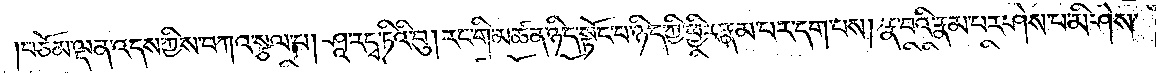བཅོམ་ལྡན་འདས་ཀྱིས་བཀའ་སྩལ་པ། ཤཱ་རདྭ་ཏིའི་བུ། རང་གི་མཚན་ཉིད་སྟོང་པ་ཉིད་ཀྱི་ཕྱིར་རྣམ་པར་དག་པས། རྣ་བའི་རྣམ་པར་ཤེས་པ་མི་ཤེས་
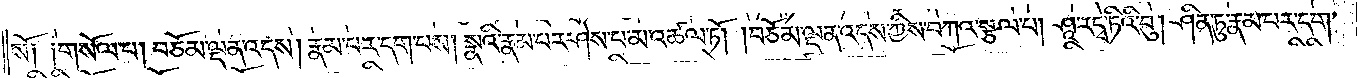སོ༑ ༑གསོལ་པ། བཅོམ་ལྡན་འདས། རྣམ་པར་དག་པས། སྣའི་རྣམ་པར་ཤེས་པ་མ་འཚལ་ཏོ། །བཅོམ་ལྡན་འདས་ཀྱིས་བཀའ་སྩལ་པ། ཤཱ་རདྭ་ཏིའི་བུ། ཤིན་ཏུ་རྣམ་པར་དག་
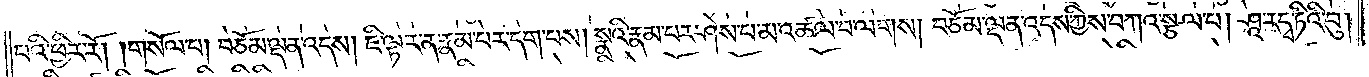པའི་ཕྱིར་རོ། །གསོལ་པ། བཅོམ་ལྡན་འདས། ཇི་ལྟར་ན་རྣམ་པར་དག་པས། སྣའི་རྣམ་པར་ཤེས་པ་མ་འཚལ་བ་ལགས། བཅོམ་ལྡན་འདས་ཀྱིས་བཀའ་སྩལ་པ། ཤཱ་ར་དྭ་ཏིའི་བུ།
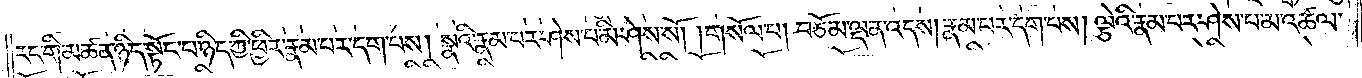རང་གི་མཚན་ཉིད་སྟོང་པ་ཉིད་ཀྱི་ཕྱིར་རྣམ་པར་དག་པས། སྣའི་རྣམ་པར་ཤེས་པ་མི་ཤེས་སོ། །གསོལ་པ། བཅོམ་ལྡན་འདས། རྣམ་པར་དག་པས། ལྕེའི་རྣམ་པར་ཤེས་པ་མ་འཚལ་
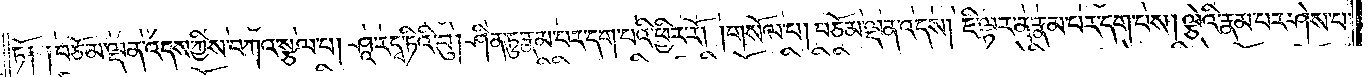ཏོ༑ ༑བཅོམ་ལྡན་འདས་ཀྱིས་བཀའ་སྩལ་པ། ཤཱ་རདྭ་ཏིའི་བུ། ཤིན་ཏུ་རྣམ་པར་དག་པའི་ཕྱིར་རོ། །གསོལ་པ། བཅོམ་ལྡན་འདས། ཇི་ལྟར་ན་རྣམ་པར་དག་པས། ལྕེའི་རྣམ་པར་ཤེས་པ་
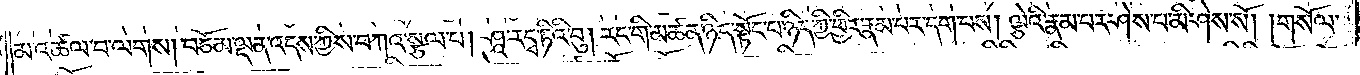མ་འཚལ་བ་ལགས། བཅོམ་ལྡན་འདས་ཀྱིས་བཀའ་སྩལ་པ། ཤཱ་ར་དྭ་ཏིའི་བུ། རང་གི་མཚན་ཉིད་སྟོང་པ་ཉིད་ཀྱི་ཕྱིར་རྣམ་པར་དག་པས། ལྕེའི་རྣམ་པར་ཤེས་པ་མི་ཤེས་སོ། །གསོལ་
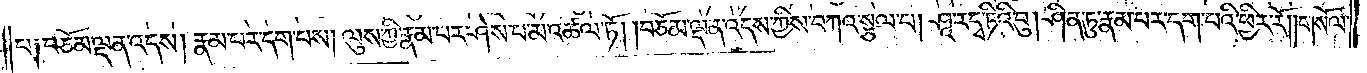པ༑ བཅོམ་ལྡན་འདས། རྣམ་པར་དག་པས། ལུས་ཀྱི་རྣམ་པར་ཤེས་པ་མ་འཚལ་ཏོ། །བཅོམ་ལྡན་འདས་ཀྱིས་བཀའ་སྩལ་པ། ཤཱ་ར་དྭ་ཏིའི་བུ། ཤིན་ཏུ་རྣམ་པར་དག་པའི་ཕྱིར་རོ། །གསོལ་
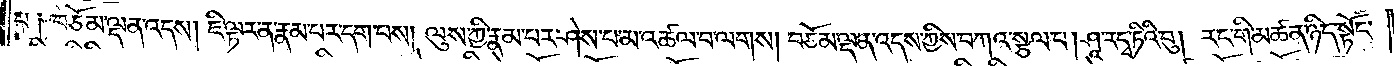པ༑ བཅོམ་ལྡན་འདས། ཇི་ལྟར་ན་རྣམ་པར་དག་པས། ལུས་ཀྱི་རྣམ་པར་ཤེས་པ་མ་འཚལ་བ་ལགས། བཅོམ་ལྡན་འདས་ཀྱིས་བཀའ་སྩལ་པ། ཤཱ་ར་དྭ་ཏིའི་བུ། རང་གི་མཚན་ཉིད་སྟོང་
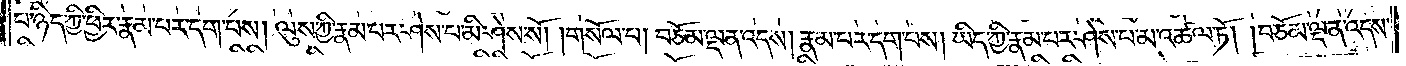པ་ཉིད་ཀྱི་ཕྱིར་རྣམ་པར་དག་པས། ལུས་ཀྱི་རྣམ་པར་ཤེས་པ་མི་ཤེས་སོ། །གསོལ་པ། བཅོམ་ལྡན་འདས། རྣམ་པར་དག་པས། ཡིད་ཀྱི་རྣམ་པར་ཤེས་པ་མ་འཚལ་ཏོ། །བཅོམ་ལྡན་འདས་
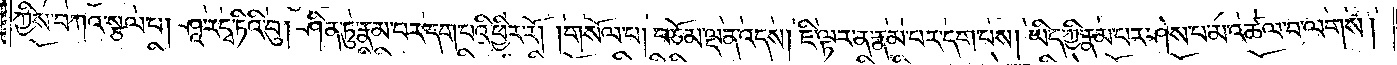ཀྱིས་བཀའ་སྩལ་པ། ཤཱ་ར་དྭ་ཏིའི་བུ། ཤིན་ཏུ་རྣམ་པར་དག་པའི་ཕྱིར་རོ། །གསོལ་པ། བཅོམ་ལྡན་འདས། ཇི་ལྟར་ན་རྣམ་པར་དག་པས། ཡིད་ཀྱི་རྣམ་པར་ཤེས་པ་མ་འཚལ་བ་ལགས།
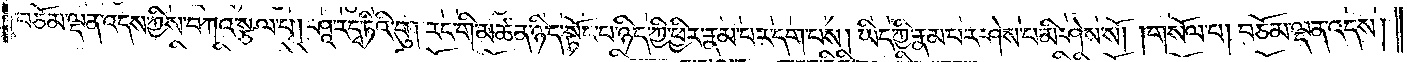བཅོམ་ལྡན་འདས་ཀྱིས་བཀའ་སྩལ་པ། ཤཱ་ར་དྭ་ཏིའི་བུ། རང་གི་མཚན་ཉིད་སྟོང་པ་ཉིད་ཀྱི་ཕྱིར་རྣམ་པར་དག་པས། ཡིད་ཀྱི་རྣམ་པར་ཤེས་པ་མི་ཤེས་སོ། །གསོལ་པ། བཅོམ་ལྡན་འདས།
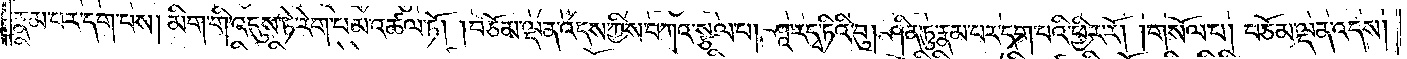རྣམ་པར་དག་པས། མིག་གི་འདུས་ཏེ་རེག་པ་མ་འཚལ་ཏོ། །བཅོམ་ལྡན་འདས་ཀྱིས་བཀའ་སྩལ་པ། ཤཱ་ར་དྭ་ཏིའི་བུ། ཤིན་ཏུ་རྣམ་པར་དག་པའི་ཕྱིར་རོ། །གསོལ་པ། བཅོམ་ལྡན་འདས།
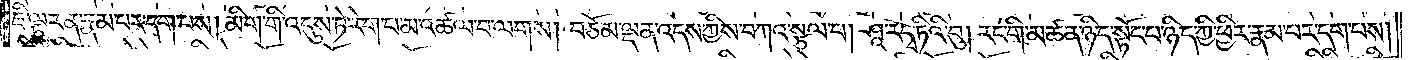ཇི་ལྟར་ན་རྣམ་པར་དག་པས། མིག་གི་འདུས་ཏེ་རེག་པ་མ་འཚལ་བ་ལགས། བཅོམ་ལྡན་འདས་ཀྱིས་བཀའ་སྩལ་པ། ཤཱ་ར་དྭ་ཏིའི་བུ། རང་གི་མཚན་ཉིད་སྟོང་པ་ཉིད་ཀྱི་ཕྱིར་རྣམ་པར་དག་པས།
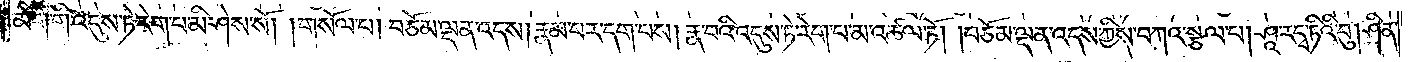མིག་གི་འདུས་ཏེ་རེག་པ་མི་ཤེས་སོ། །གསོལ་པ། བཅོམ་ལྡན་འདས། རྣམ་པར་དག་པས། རྣ་བའི་འདུས་ཏེ་རེག་པ་མ་འཚལ་ཏོ། །བཅོམ་ལྡན་འདས་ཀྱིས་བཀའ་སྩལ་པ། ཤཱ་ར་དྭ་ཏིའི་བུ། ཤིན་
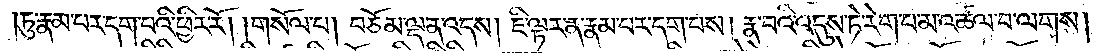ཏུ་རྣམ་པར་དག་པའི་ཕྱིར་རོ། །གསོལ་པ། བཅོམ་ལྡན་འདས། ཇི་ལྟར་ན་རྣམ་པར་དག་པས། རྣ་བའི་འདུས་ཏེ་རེག་པ་མ་འཚལ་བ་ལགས།
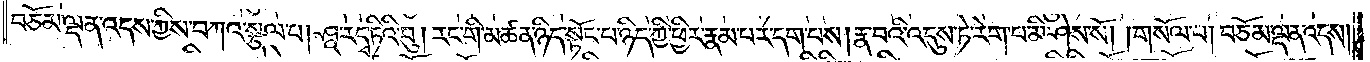བཅོམ་ལྡན་འདས་ཀྱིས་བཀའ་སྩལ་པ། ཤཱ་རདྭ་ཏིའི་བུ། རང་གི་མཚན་ཉིད་སྟོང་པ་ཉིད་ཀྱི་ཕྱིར་རྣམ་པར་དག་པས། རྣ་བའི་འདུས་ཏེ་རེག་པ་མི་ཤེས་སོ། །གསོལ་པ། བཅོམ་ལྡན་འདས།
